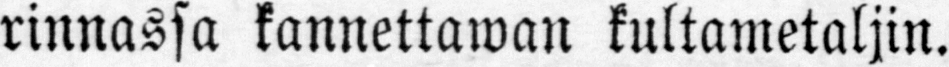rinnassa kannettawan kultametaljin.
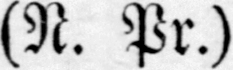(N. Pr.)
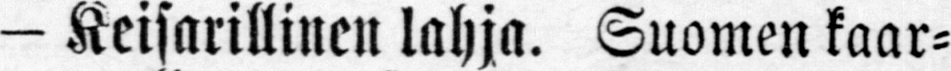- Keisarillinen lahja. Suomen kaar-
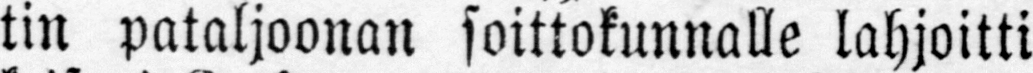tin pataljoonan soittokunnalle lahjoitti
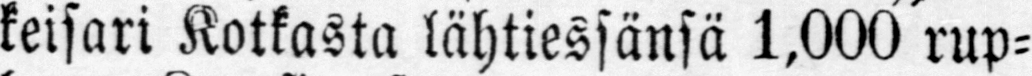keisari Kotkasta lähtiessänsä 1,000 rup-
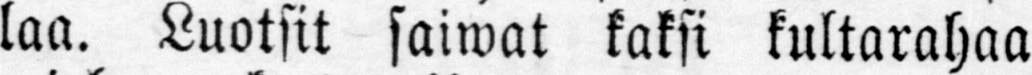laa. Luotsit saiwat kaksi kultarahaa
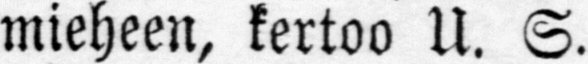mieheen, kertoo U. S.
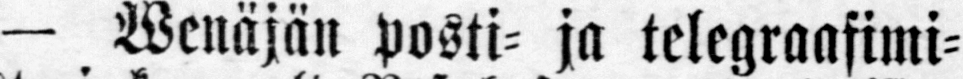— Wenäjän posti- ja telegraafimi-
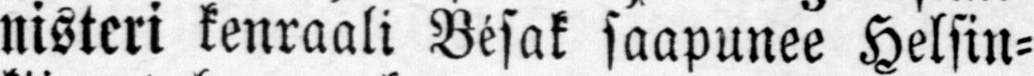nisteri kenraali Bésak saapunee Helsin-
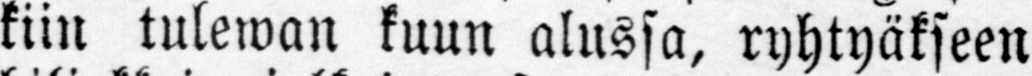kiin tulewan kuun alussa, ryhtyäkseen
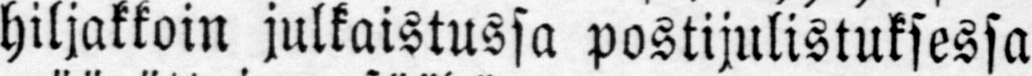hiljakkoin julkaistussa postijulistuksessa
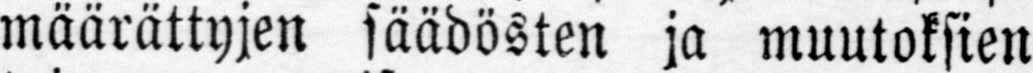määrättyjen säädösten ja muutoksien
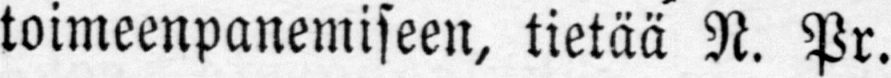toimeenpanemiseen, tietää N. Pr.
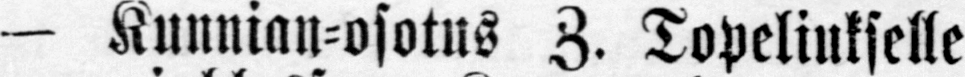- Kunnian-osotus Z. Topeliukselle
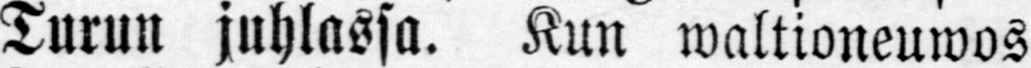Turun juhlassa. Kun waltioneuwos
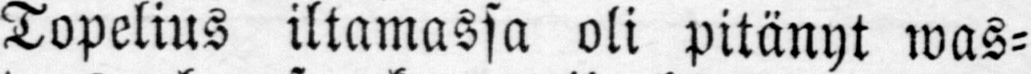Topelius iltamassa oli pitänyt was-
